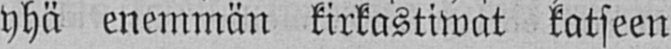yhä enemmän kirkastiwat katseen
